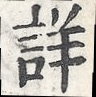詳
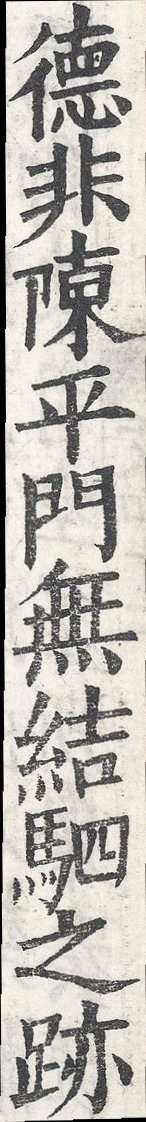德非陳平門無結駟之跡
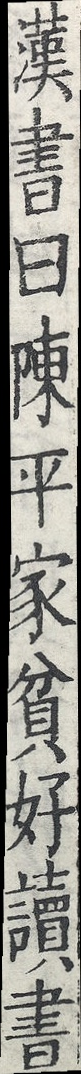漢書曰陳平家貧好讀書
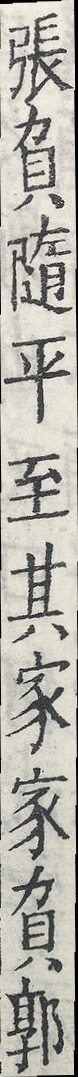張負隨平至其家家負郭
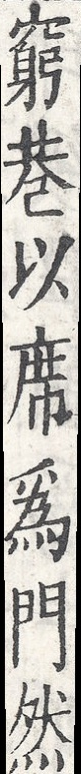窮巷以席為門然
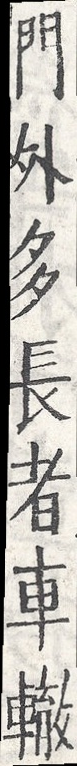門外多長者車轍
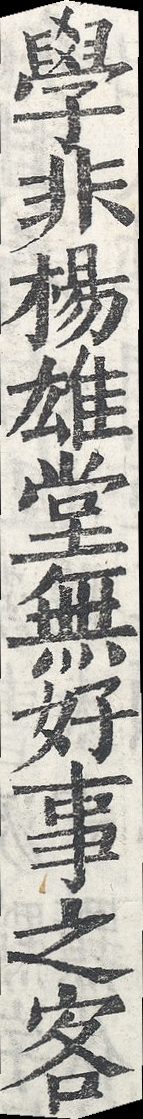學非楊雄堂無好事之客
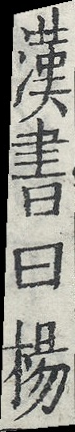漢書曰楊
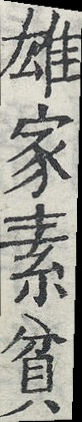雄家素貧
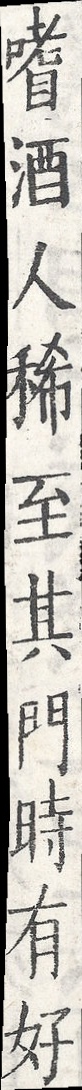嗜酒人稀至其門時有好
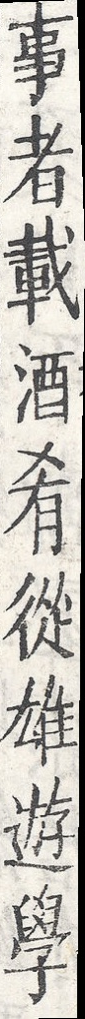事者載酒肴從雄遊學
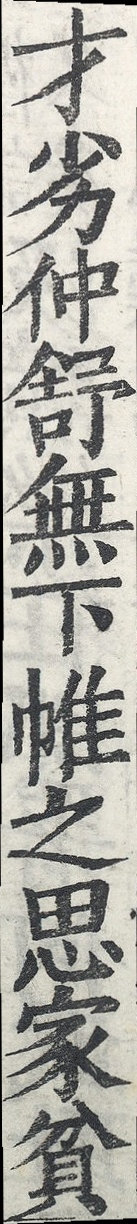才劣仲舒無下帷之思家貧
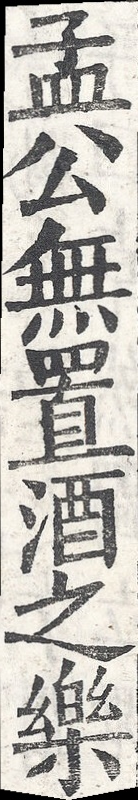孟公無置酒之樂
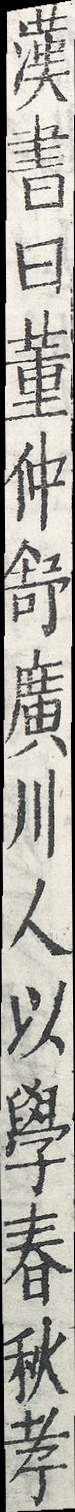漢書曰董仲舒廣川人以學春秋孝
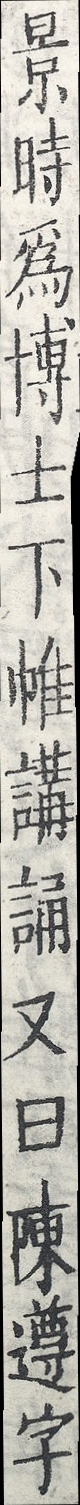景時為博士下帷講誦又曰陳遵字
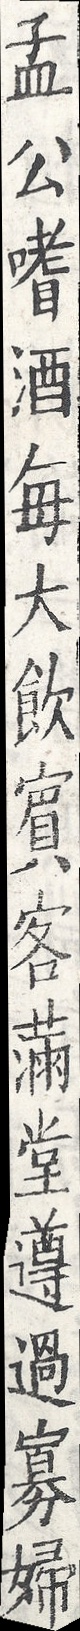孟公嗜酒每大飲，賔客滿堂遵過寡婦
